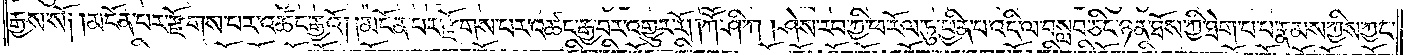རྒྱས་སོ། །མངོན་པར་རྫོགས་པར་འཚང་རྒྱའོ། །མངོན་པར་རྫོགས་པར་འཚང་རྒྱ་བར་འགྱུར་རོ། །ཀཽ་ཤི་ཀ །ཤེས་རབ་ཀྱི་ཕ་རོལ་ཏུ་ཕྱིན་པ་འདི་ལ་བསླབ་ཅིང་ཉན་ཐོས་ཀྱི་ཐེག་པ་པ་རྣམས་ཀྱིས་ཀྱང་
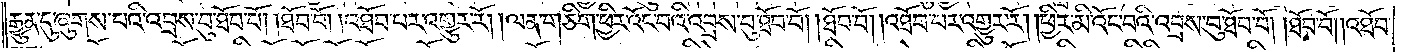རྒྱུན་དུ་ཞུགས་པའི་འབྲས་བུ་ཐོབ་བོ། ཐོབ་བོ། འཐོབ་པར་འགྱུར་རོ། །ལན་གཅིག་ཕྱིར་འོང་བའི་འབྲས་བུ་ཐོབ་བོ། །ཐོབ་བོ། །འཐོབ་པར་འགྱུར་རོ། །ཕྱིར་མི་འོང་བའི་འབྲས་བུ་ཐོབ་བོ། །ཐོབ་བོ། །འཐོབ་
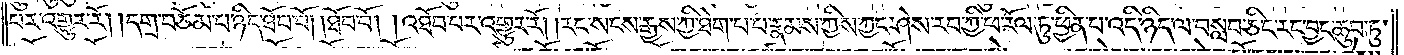པར་འགྱུར་རོ། །དགྲ་བཅོམ་པ་ཉིད་ཐོབ་བོ། །ཐོབ་བོ། །འཐོབ་པར་འགྱུར་རོ། །རང་སངས་རྒྱས་ཀྱི་ཐེག་པ་པ་རྣམས་ཀྱིས་ཀྱང་ཤེས་རབ་ཀྱི་ཕ་རོལ་ཏུ་ཕྱིན་པ་འདི་ཉིད་ལ་བསླབ་ཅིང་རང་བྱང་ཆུབ་ཏུ་
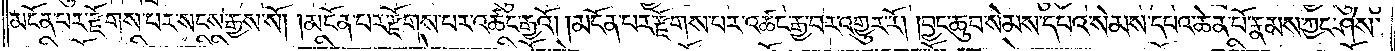མངོན་པར་རྫོགས་པར་སངས་རྒྱས་སོ། །མངོན་པར་རྫོགས་པར་འཚང་རྒྱའོ། །མངོན་པར་རྫོགས་པར་འཚང་རྒྱ་བར་འགྱུར་རོ། །བྱང་ཆུབ་སེམས་དཔའ་སེམས་དཔའ་ཆེན་པོ་རྣམས་ཀྱང་ཤེས་
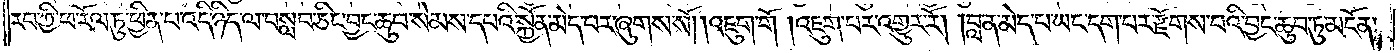རབ་ཀྱི་ཕ་རོལ་ཏུ་ཕྱིན་པ་འདི་ཉིད་ལ་བསླབ་ཅིང༌བྱང་ཆུབ་སེམས་དཔའི་སྐྱོན་མེད་པར་ཞུགས་སོ། །འཇུག་གོ །འཇུག་པར་འགྱུར་རོ། །བླ་ན་མེད་པ་ཡང་དག་པར་རྫོགས་པའི་བྱང་ཆུབ་ཏུ་མངོན་
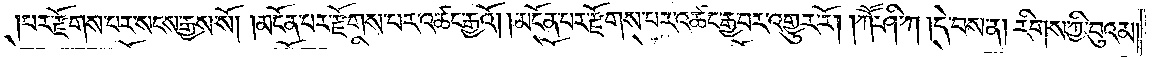པར་རྫོགས་པར་སངས་རྒྱས་སོ། །མངོན་པར་རྫོགས་པར་འཚང་རྒྱའོ། །མངོན་པར་རྫོགས་པར་འཚང་རྒྱ་བར་འགྱུར་རོ། །ཀོ་ཤི་ཀ །དེ་བས་ན། རིགས་ཀྱི་བུའམ།
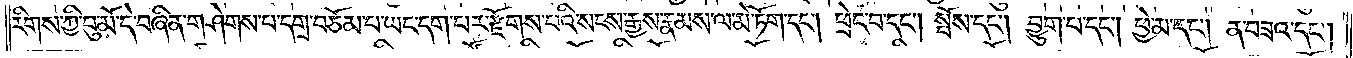རིགས་ཀྱི་བུ་མོ་དེ་བཞིན་གཤེགས་པ་དགྲ་བཅོམ་པ་ཡང་དག་པར་རྫོགས་པའི་སངས་རྒྱས་རྣམས་ལ་མེ་ཏོག་དང༌། ཕྲེང་བ་དང༌། སྤོས་དང༌། བྱུག་པ་དང༌། ཕྱེ་མ་དང༌། ན་བཟའ་དང༌།
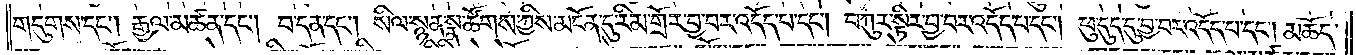གདུགས་དང༌། རྒྱལ་མཚན་དང༌། བ་དན་དང༌། སིལ་སྙན་སྣ་ཚོགས་ཀྱིས་མངོན་དུ་རིམ་གྲོར་བྱ་བར་འདོད་པ་དང༌། བཀུར་སྟིར་བྱ་བར་འདོད་པ་དང༌། ཕུ་དུད་དུ་བྱ་བར་འདོད་པ་དང༌། མཆོད་
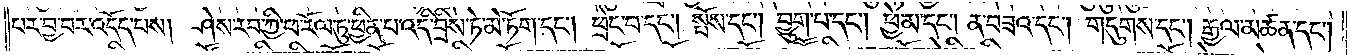པར་བྱ་བར་འདོད་པས། ཤེས་རབ་ཀྱི་ཕ་རོལ་ཏུ་ཕྱིན་པ་འདི་བྲིས་ཏེ་མེ་ཏོག་དང༌། ཕྲེང་བ་དང༌། སྤོས་དང༌། བྱུག་པ་དང༌། ཕྱེ་མ་དང༌། ན་བཟའ་དང༌། གདུགས་དང༌། རྒྱལ་མཚན་དང༌།
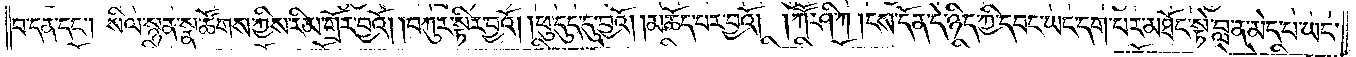བ་དན་དང༌། སིལ་སྙན་སྣ་ཚོགས་ཀྱིས་རིམ་གྲོར་བྱའོ། །བཀུར་སྟིར་བྱའོ། །ཕུ་དུད་དུ་བྱའོ། །མཆོད་པར་བྱའོ། །ཀཽ་ཤི་ཀ །ངས་དོན་དེ་ཉིད་ཀྱི་དབང་ཡང་དག་པར་མཐོང་སྟེ་བླ་ན་མེད་པ་ཡང་
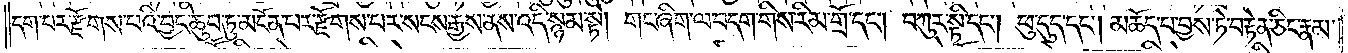དག་པར་རྫོགས་པའི་བྱང་ཆུབ་ཏུ་མངོན་པར་རྫོགས་པར་སངས་རྒྱས་ནས་འདི་སྙམ་སྟེ། གང་ཞིག་ལ་བདག་གིས་རིམ་གྲོ་དང༌། བཀུར་སྟི་དང༌། ཕུ་དུད་དང༌། མཆོད་པ་བྱས་ཏེ་བརྟེན་ཅིང་རྣམ་
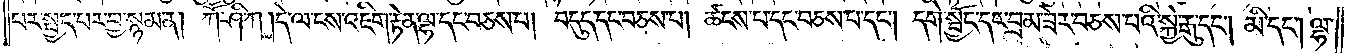པར་སྤྱད་པར་བྱ་སྙམ་ན། ཀཽ་ཤི་ཀ །དེ་ལ་ངས་འཇིག་རྟེན་ལྷ་དང་བཅས་པ། བདུད་དང་བཅས་པ། ཚངས་པ་དང་བཅས་པ་དང༌། དགེ་སྦྱོང་དང་བྲམ་ཟེར་བཅས་པའི་སྐྱེ་རྒུ་དང༌། མི་དང༌། ལྷ་
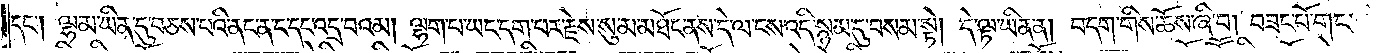དང༌། ལྷ་མ་ཡིན་དུ་བཅས་པའི་ནང་ན་དེ་དང་འདྲ་བའམ། ལྷག་པ་ཡང་དག་པར་རྗེས་སུ་མ་མཐོང་ནས་དེ་ལ་ངས་འདི་སྙམ་དུ་བསམས་ཏེ། དེ་ལྟ་ཡིན་ན། བདག་གིས་ཆོས་ཞི་བ། བཟང་པོ་གང་
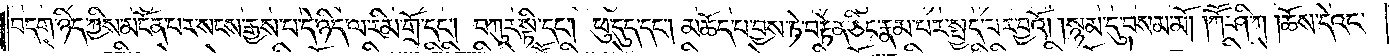བདག་ཉིད་ཀྱིས་མངོན་པར་སངས་རྒྱས་པ་དེ་ཉིད་ལ་རིམ་གྲོ་དང༌། བཀུར་སྟི་དང༌། ཕུ་དུད་དང༌། མཆོད་པ་བྱས་ཏེ་བརྟེན་ཅིང་རྣམ་པར་སྤྱད་པར་བྱའོ། སྙམ་དུ་བསམས་སོ། །ཀཽ་ཤི་ཀ །ཆོས་དེའང་
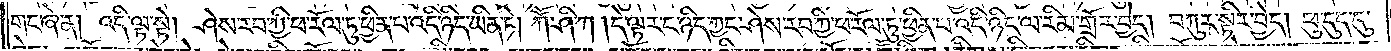གང་ཞེ་ན། འདི་ལྟ་སྟེ། ཤེས་རབ་ཀྱི་ཕ་རོལ་ཏུ་ཕྱིན་པ་འདི་ཉིད་ཡིན་ཏེ། ཀཽ་ཤི་ཀ །དེ་ལྟར་ང་ཉིད་ཀྱང་ཤེས་རབ་ཀྱི་ཕ་རོལ་ཏུ་ཕྱིན་པ་འདི་ཉིད་ལ་རིམ་གྲོར་བྱེད། བཀུར་སྟིར་བྱེད། ཕུ་དུད་དུ་
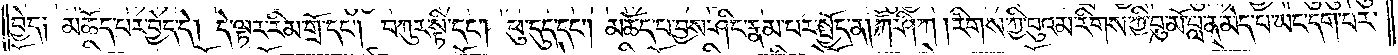བྱེད། མཆོད་པར་བྱེད་དེ། དེ་ལྟར་རིམ་གྲོ་དང༌། བཀུར་སྟི་དང༌། ཕུ་དུད་དང༌། མཆོད་པ་བྱས་ཤིང་རྣམ་པར་སྤྱོད་ན། ཀཽ་ཤི་ཀ །རིགས་ཀྱི་བུའམ་རིགས་ཀྱི་བུ་མོ་བླ་ན་མེད་པ་ཡང་དག་པར་
